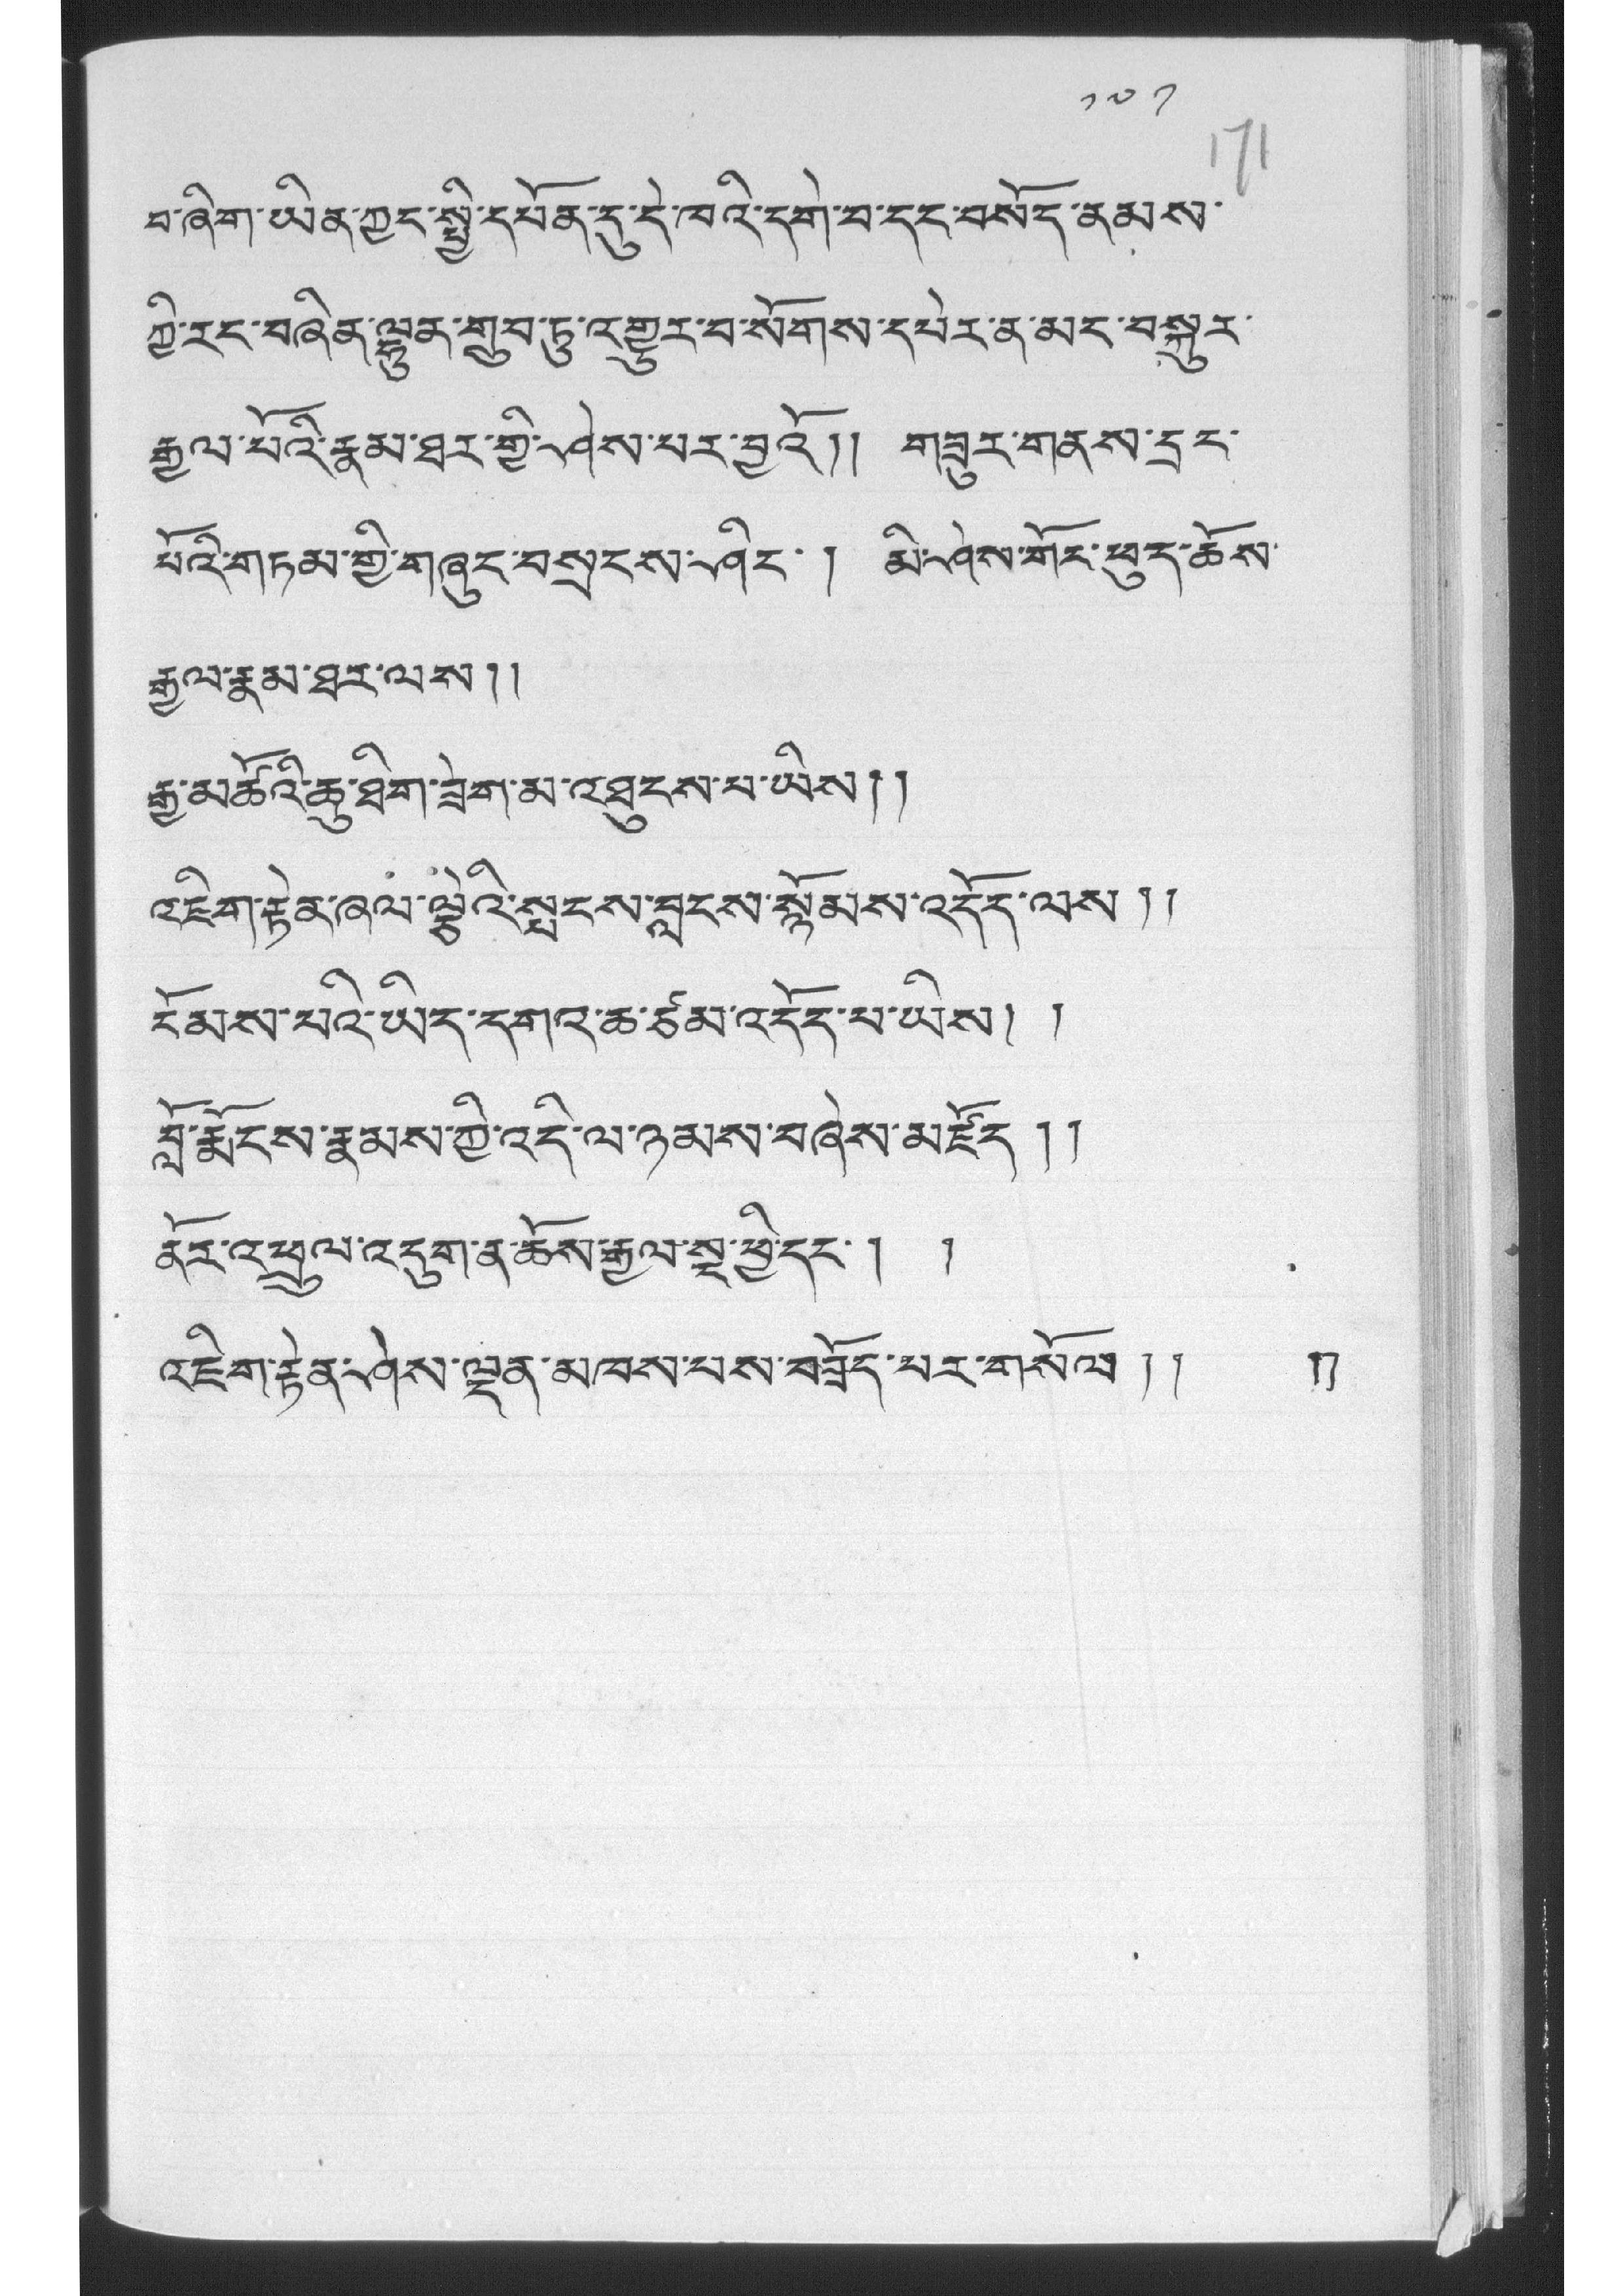༡༧༡
བ་ཞིག་ཡིན་ཀྱང་སྤྱི་དཔོན་དུ་དེ་ཁའི་དགེ་བ་དང་བསོད་ནམས་
ཀྱི་རང་བཞིན་ལྷུན་གྲུབ་ཏུ་འགྱུར་བ་སོགས་དཔེར་ན་མང་བསྐུར་
རྒྱལ་པོའི་རྣམ་ཐར་གྱི་དཤེས་པར་བྱའོ།། གཟུར་གནས་དྲང་
པོའི་གཏམ་གྱི་གཞུང་བསྲངས་ཤིང་། མི་ཤེས་གོང་ཕུད་ཆོས་
རྒྱལ་རྣམ་ཐར་ལས།།
རྒྱ་མཚོའི་ཆུ་ཐིག་ཟེག་མ་འཐུངས་པ་ཡིས།།
འཇིག་རྟེན་ཞལ་ལྕེའི་སྤངས་བླངས་སྙོམས་འདོར་ལས།།
ངོམས་པའི་ཡིད་དགའ་ཆ་ཙམ་འདོད་པ་ཡས། །
བློ་རྨོངས་རྣམས་ཀྱི་འདི་ལ་ཉམས་བཞེས་མཛོད།།
ནར་འཕྲུལ་འདུག་ན་ཆོས་རྒྱལ་སྔ་ཕྱི་དང་། །
འཇིག་རྟེན་ཤེས་ལྡན་མཁས་པས་བཟོད་པར་གསོལ།། །།
